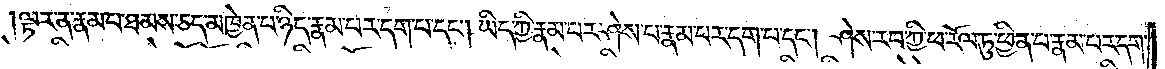ལྟར་ན་རྣམ་པ་ཐམས་ཅད་མཁྱེན་པ་ཉིད་རྣམ་པར་དག་པ་དང༌། ཡིད་ཀྱི་རྣམ་པར་ཤེས་པ་རྣམ་པར་དག་པ་དང༌། ཤེས་རབ་ཀྱི་ཕ་རོལ་ཏུ་ཕྱིན་པ་རྣམ་པར་དག་
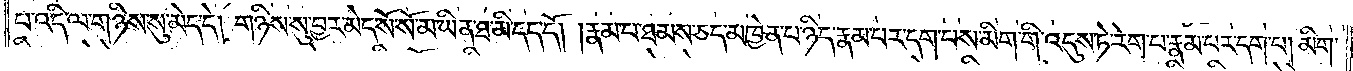པ་འདི་ལ་གཉིས་སུ་མེད་དེ། གཉིས་སུ་བྱར་མེད་སོ་སོ་མ་ཡིན་ཐ་མི་དད་དོ། །རྣམ་པ་ཐམས་ཅད་མཁྱེན་པ་ཉིད་རྣམ་པར་དག་པས་མིག་གི་འདུས་ཏེ་རེག་པ་རྣམ་པར་དག་པ། མིག་
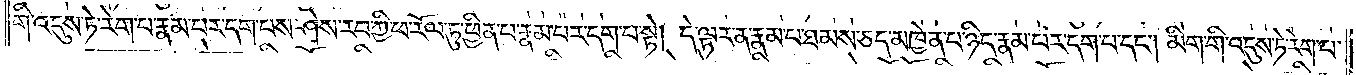གི་འདུས་ཏེ་རེག་པ་རྣམ་པར་དག་པས་ཤེས་རབ་ཀྱི་ཕ་རོལ་ཏུ་ཕྱིན་པ་རྣམ་པར་དག་པ་སྟེ། དེ་ལྟར་ན་རྣམ་པ་ཐམས་ཅད་མཁྱེན་པ་ཉིད་རྣམ་པར་དག་པ་དང༌། མིག་གི་འདུས་ཏེ་རེག་པ་
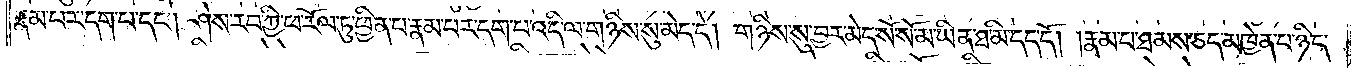རྣམ་པར་དག་པ་དང༌། ཤེས་རབ་ཀྱི་ཕ་རོལ་ཏུ་ཕྱིན་པ་རྣམ་པར་དག་པ་འདི་ལ་གཉིས་སུ་མེད་དེ། གཉིས་སུ་བྱར་མེད་སོ་སོ་མ་ཡིན་ཐ་མི་དད་དོ། །རྣམ་པ་ཐམས་ཅད་མཁྱེན་པ་ཉིད་
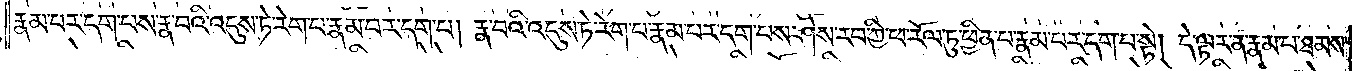རྣམ་པར་དག་པས་རྣ་བའི་འདུས་ཏེ་རེག་པ་རྣམ་པར་དག་པ། རྣ་བའི་འདུས་ཏེ་རེག་པ་རྣམ་པར་དག་པས་ཤེས་རབ་ཀྱི་ཕ་རོལ་ཏུ་ཕྱིན་པ་རྣམ་པར་དག་པ་སྟེ། དེ་ལྟར་ན་རྣམ་པ་ཐམས་
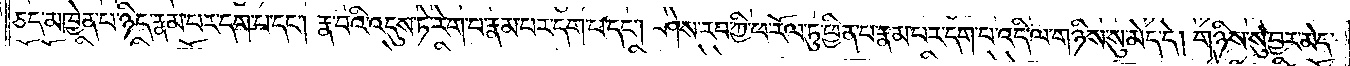ཅད་མཁྱེན་པ་ཉིད་རྣམ་པར་དག་པ་དང༌། རྣ་བའི་འདུས་ཏེ་རེག་པ་རྣམ་པར་དག་པ་དང༌། ཤེས་རབ་ཀྱི་ཕ་རོལ་ཏུ་ཕྱིན་པ་རྣམ་པར་དག་པ་འདི་ལ་གཉིས་སུ་མེད་དེ། གཉིས་སུ་བྱར་མེད་
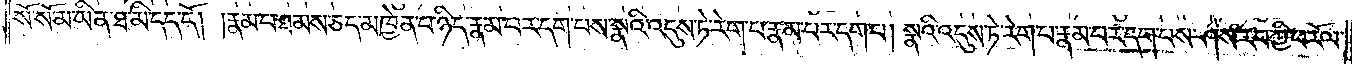སོ་སོ་མ་ཡིན་ཐ་མི་དད་དོ། །རྣམ་པ་ཐམས་ཅད་མཁྱེན་པ་ཉིད་རྣམ་པར་དག་པས་སྣའི་འདུས་ཏེ་རེག་པ་རྣམ་པར་དག་པ། སྣའི་འདུས་ཏེ་རེག་པ་རྣམ་པར་དག་པས་ཤེས་རབ་ཀྱི་ཕ་རོལ་
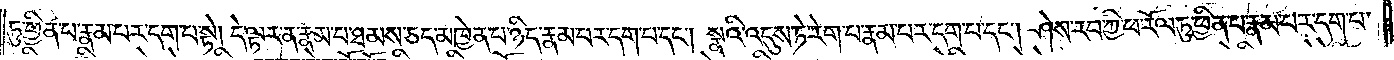ཏུ་ཕྱིན་པ་རྣམ་པར་དག་པ་སྟེ། དེ་ལྟར་ན་རྣམ་པ་ཐམས་ཅད་མཁྱེན་པ་ཉིད་རྣམ་པར་དག་པ་དང༌། སྣའི་འདུས་ཏེ་རེག་པ་རྣམ་པར་དག་པ་དང༌། ཤེས་རབ་ཀྱི་ཕ་རོལ་ཏུ་ཕྱིན་པ་རྣམ་པར་དག་པ་
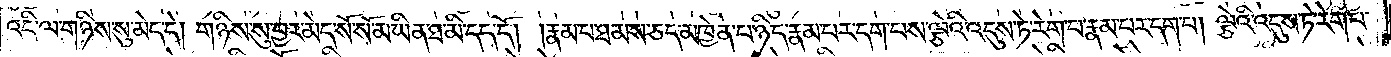འདི་ལ་གཉིས་སུ་མེད་དེ། གཉིས་སུ་བྱར་མེད་སོ་སོ་མ་ཡིན་ཐ་མི་དད་དོ། །རྣམ་པ་ཐམས་ཅད་མཁྱེན་པ་ཉིད་རྣམ་པར་དག་པས་ལྕེའི་འདུས་ཏེ་རེག་པ་རྣམ་པར་དག་པ། ལྕེའི་འདུས་ཏེ་རེག་པ་
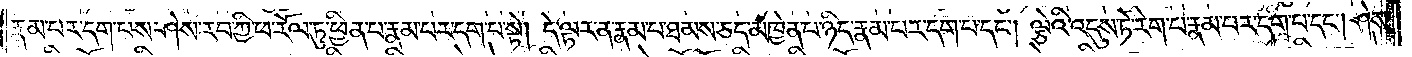རྣམ་པར་དག་པས་ཤེས་རབ་ཀྱི་ཕ་རོལ་ཏུ་ཕྱིན་པ་རྣམ་པར་དག་པ་སྟེ། དེ་ལྟར་ན་རྣམ་པ་ཐམས་ཅད་མཁྱེན་པ་ཉིད་རྣམ་པར་དག་པ་དང༌། ལྕེའི་འདུས་ཏེ་རེག་པ་རྣམ་པར་དག་པ་དང༌། ཤེས་
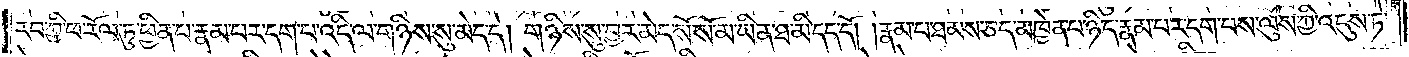རབ་ཀྱི་ཕ་རོལ་ཏུ་ཕྱིན་པ་རྣམ་པར་དག་པ་འདི་ལ་གཉིས་སུ་མེད་དེ། གཉིས་སུ་བྱར་མེད་སོ་སོ་མ་ཡིན་ཐ་མི་དད་དོ། །རྣམ་པ་ཐམས་ཅད་མཁྱེན་པ་ཉིད་རྣམ་པར་དག་པས་ལུས་ཀྱི་འདུས་ཏེ་
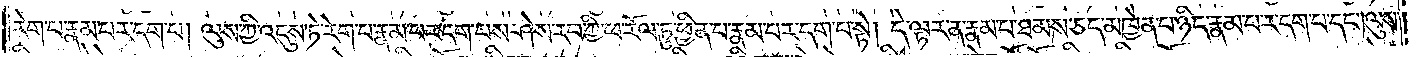རེག་པ་རྣམ་པར་དག་པ། ལུས་ཀྱི་འདུས་ཏེ་རེག་པ་རྣམ་པར་དག་པས་ཤེས་རབ་ཀྱི་ཕ་རོལ་ཏུ་ཕྱིན་པ་རྣམ་པར་དག་པ་སྟེ། དེ་ལྟར་ན་རྣམ་པར་ཐམས་ཅད་མཁྱེན་པ་ཉིད་རྣམ་པར་དག་པ་དང༌། ལུས་
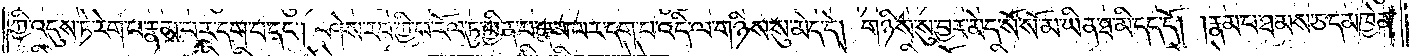ཀྱི་འདུས་ཏེ་རེག་པ་རྣམ་པར་དག་པ་དང༌། ཤེས་རབ་ཀྱི་ཕ་རོལ་ཏུ་ཕྱིན་པ་རྣམ་པར་དག་པ་འདི་ལ་གཉིས་སུ་མེད་དེ། གཉིས་སུ་བྱར་མེད་སོ་སོ་མ་ཡིན་ཐ་མི་དད་དོ། །རྣམ་པ་ཐམས་ཅད་མཁྱེན་
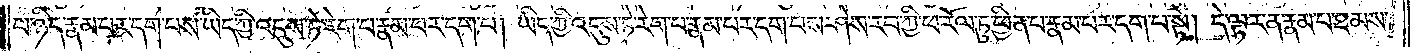པ་ཉིད་རྣམ་པར་དག་པས་ཡིད་ཀྱི་འདུས་ཏེ་རེག་པ་རྣམ་པར་དག་པ། ཡིད་ཀྱི་འདུས་ཏེ་རེག་པ་རྣམ་པར་དག་པས་ཤེས་རབ་ཀྱི་ཕ་རོལ་ཏུ་ཕྱིན་པ་རྣམ་པར་དག་པ་སྟེ། དེ་ལྟར་ན་རྣམ་པ་ཐམས་
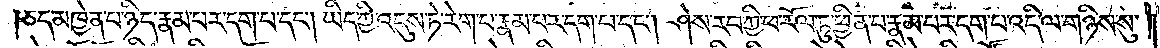ཅད་མཁྱེན་པ་ཉིད་རྣམ་པར་དག་པ་དང༌། ཡིད་ཀྱི་འདུས་ཏེ་རེག་པ་རྣམ་པར་དག་པ་དང༌། ཤེས་རབ་ཀྱི་ཕ་རོལ་ཏུ་ཕྱིན་པ་རྣམ་པར་དག་པ་འདི་ལ་གཉིས་སུ་
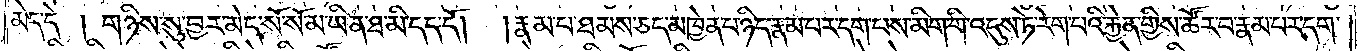མེད་དེ། གཉིས་སུ་བྱར་མེད་སོ་སོ་མ་ཡིན་ཐ་མི་དད་དོ། །རྣམ་པ་ཐམས་ཅད་མཁྱེན་པ་ཉིད་རྣམ་པར་དག་པས་མིག་གི་འདུས་ཏེ་རེག་པའི་རྐྱེན་གྱིས་ཚོར་བ་རྣམ་པར་དག་
